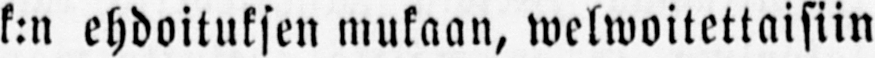k:n ehdoituksen mukaan, welwoitettaisiin
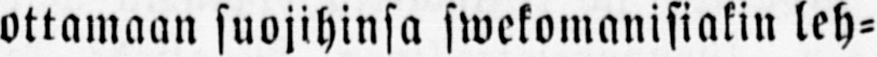ottamaan suojihinsa swekomanisiakin leh-
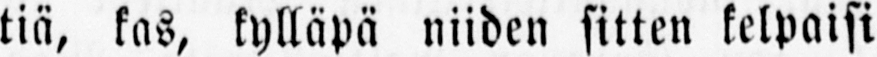tiä, kas, kylläpä niiden sitten kelpaisi
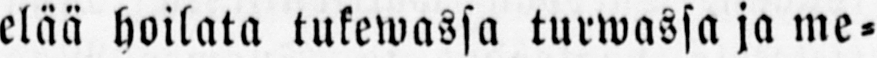elää hoilata tukewassa turwassa ja me-
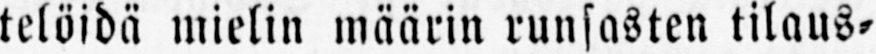telöidä mielin määrin runsasten tilaus-
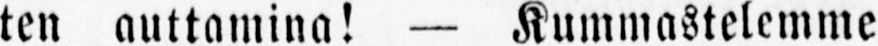ten auttamina! — Kummastelemme
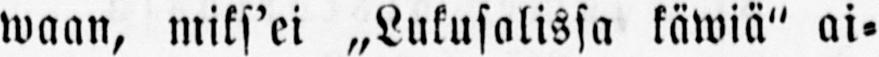waan, miks'ei „Lukusalissa käwiä" ai-
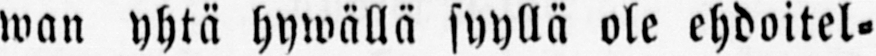wan yhtä hywällä syyllä ole ehdoitel-
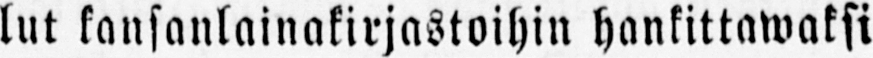lut kansanlainakirjastoihin hankittawaksi
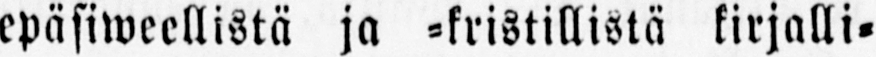epäsiweellistä ja -kristillistä kirjalli-
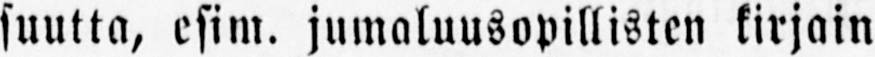suutta, esim. jumaluusopillisten kirjain
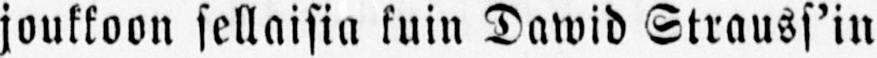joukkoon sellaisia kuin Dawid Strauss'in
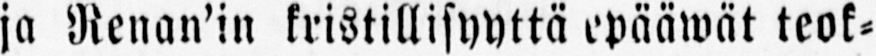ja Renan'in kristillisyyttä epääwät teok-
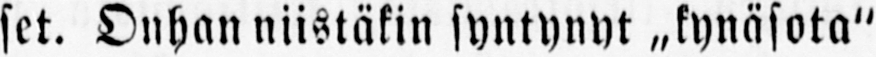set. Onhan niistäkin syntynyt „kynäsota"
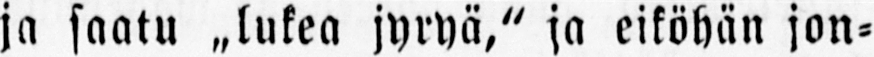ja saatu „lukea jyryä," ja eiköhän jon-
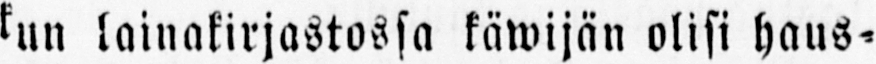kun lainakirjastossa käwijän olisi haus-
